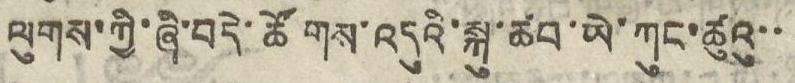ལུགས་ཀྱི་ཞི་བདེ་ཚོགས་འདུའི་སྐུ་ཚབ་ཡེ་ཀུང་ཚུའུ་་
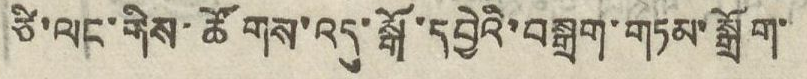ཙི་ལང་གིས་ཚོགས་འདུ་སྒོ་དབྱེའི་བསྒྲག་གཏམ་སྒྲོག་
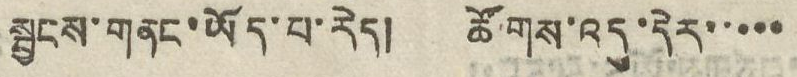སྦྱངས་གནང་ཡོད་པ་རེད། ཚོགས་འདུ་དེར་་་་་
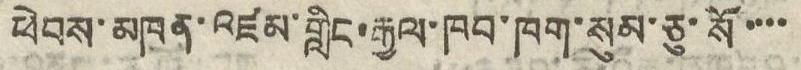ཕེབས་མཁན་འཛམ་གླིང་རྒྱལ་ཁབ་ཁག་སུམ་ཅུ་སོ་་་་
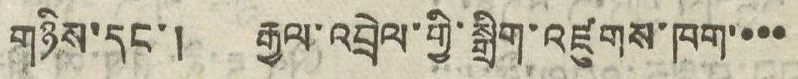གཉིས་དང་། རྒྱལ་འབྲེལ་གྱི་སྒྲིག་འཛུགས་ཁག་་་་
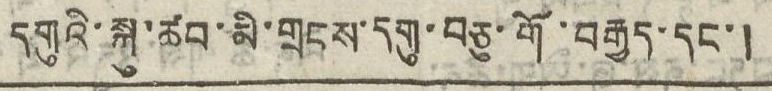དགུའི་སྐུ་ཚབ་མི་གྲངས་དགུ་བཅུ་གོ་བརྒྱད་དང་།
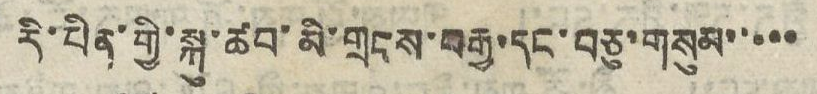རི་པིན་གྱི་སྐུ་ཚབ་མི་གྲངས་བརྒྱ་དང་བཅུ་གསུམ་་་་་
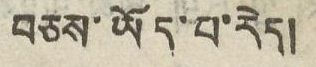བཅས་ཡོད་པ་རེད།
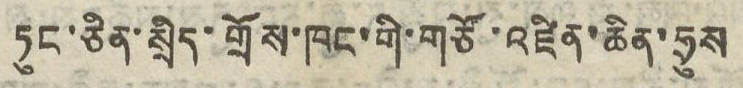ཏུང་ཅིན་སྲིད་གྲོས་ཁང་གི་གཙོ་འཛིན་ཆིན་ཧྲུས
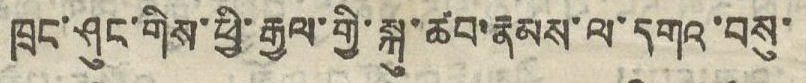ཁྲང་ཤུང་གིས་ཕྱི་རྒྱལ་གྱི་སྐུ་ཚབ་རྣམས་ལ་དགའ་བསུ་
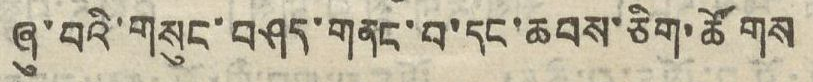ཞུ་བའི་གསུང་བཤད་གནང་བ་དང་ཆབས་ཅིག་ཚོགས
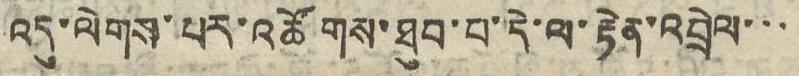འདུ་ལེགས་པར་འཚོགས་ཐུབ་པ་དེ་ལ་རྟེན་འབྲེལ་་་
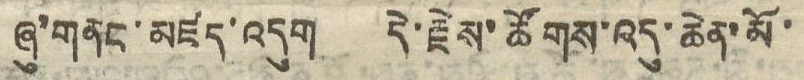ཞུ་གནང་མཛད་འདུག དེ་རྗེས་ཚོགས་འདུ་ཆེན་མོ་
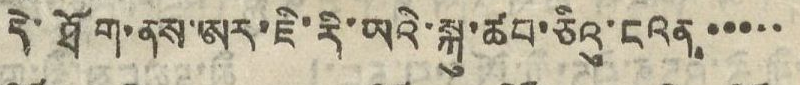དེ་ཐོག་ནས་ཨར་ཇི་རི་ཡའི་སྐུ་ཆབ་ཅིའུ་ངའན་་་་་
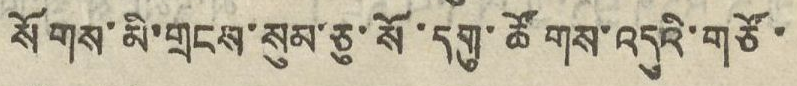སོགས་མི་གྲངས་སུམ་ཅུ་སོ་དགུ་ཚོགས་འདུའི་གཙོ་
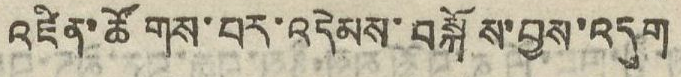འཛིན་ཚོགས་པར་འདེམས་བསྐོས་བྱས་འདུག
